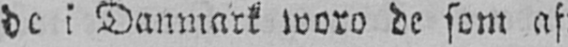de i Danmark woro de som afundsjuke öfwer
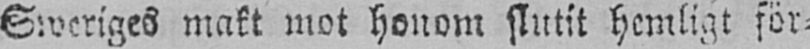Sweriges makt mot honom slutit hemligt för-
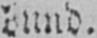bund.
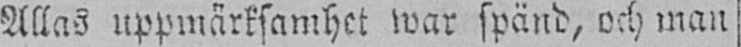Allas uppmärksamhet war spänd, och man
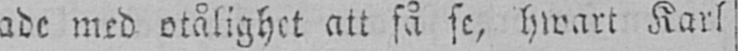wäntade med otålighet att få se, hwart Karl
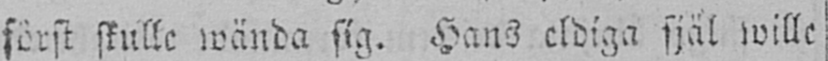först skulle wända sig. Hans eldiga själ wille
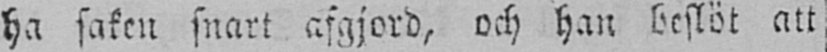ha saken snart afgjord, och han beslöt att
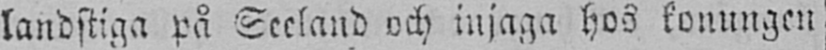landstiga på Seeland och injaga hos konungen
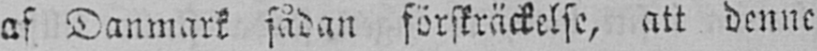af Danmark sådan förskräckelse, att denne
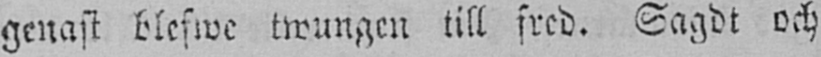genast blefwe twungen till fred. Sagdt och
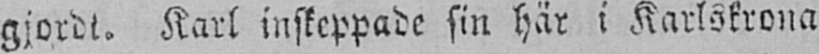gjordt. Karl inskeppade sin här i Karlskrona
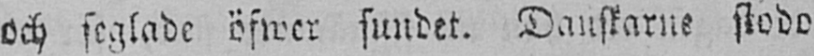och seglade öfwer sundet. Danskarne stodo
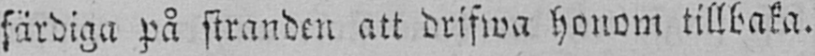färdiga på stranden att drifwa honom tillbaka.
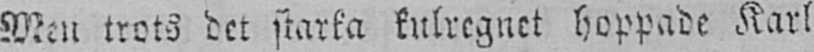Men trots det starka kulregnet hoppade Karl
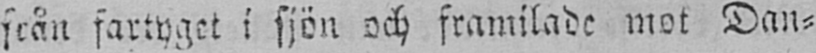från fartyget i sjön och framilade mot Dan-
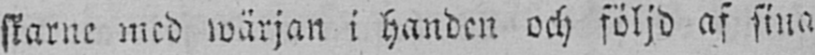skarne med wärjan i handen och följd af sina
